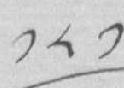༡༨༡
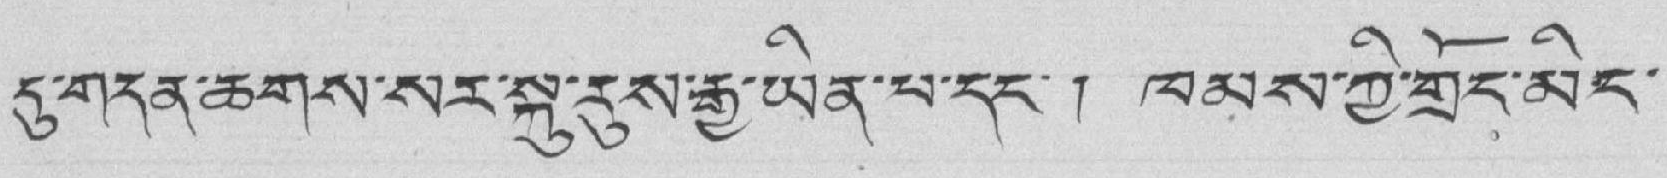དུ་གདན་ཆགས་སར་སྐུ་རུས་རྒྱ་ཡིན་པ་དང་ ། ཁམས་ཀྱི་གྲོང་མིང་
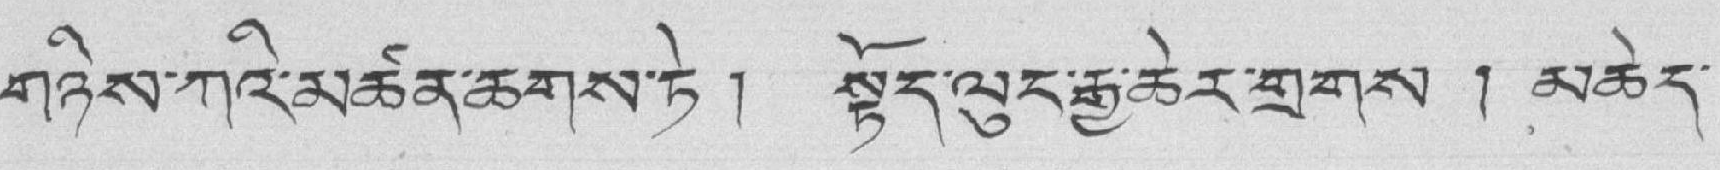གཉིས་ཀའི་མཚན་ཆགས་ཏེ ། སྟོད་ལུང་རྒྱ་ཆེར་གྲགས ། མཆེད་
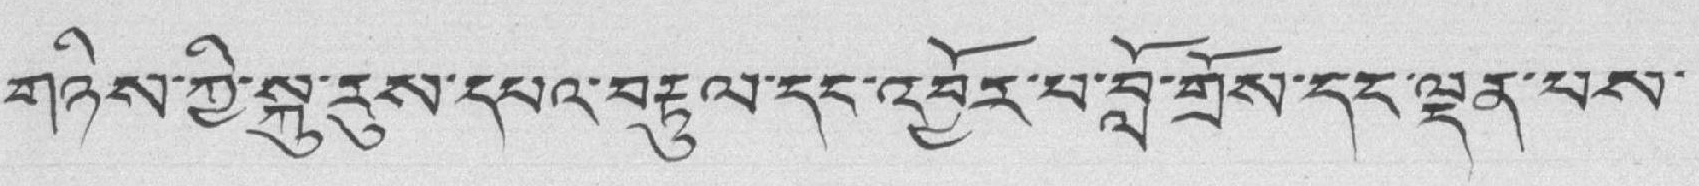གཉིས་ཀྱི་སྐུ་རུས་དཔའ་བརྟུལ་དང་འབྱོར་པ་བློ་གྲོས་དང་ལྡན་པས་
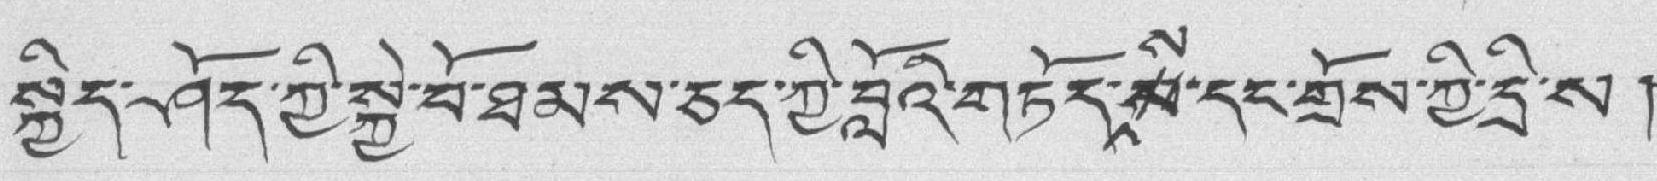སྐྱིད་ཤོད་ཀྱི་སྐྱེ་བོ་ཐམས་ཅད་ཀྱི་བློའི་གཏོད་སས་དང་གྲོས་ཀྱི་དྲི་ས །
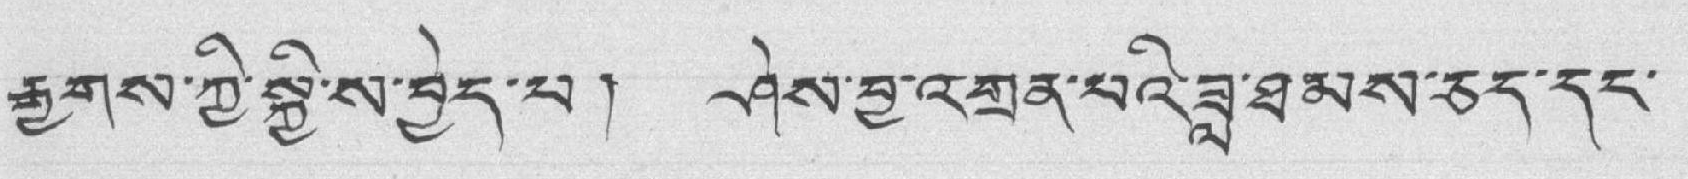རྒྱགས་ཀྱི་སྐྱི་ས་བྱེད་པ། ཤེས་བྱ་འགྲན་པའི་ཟླ་ཐམས་ཅད་དང་
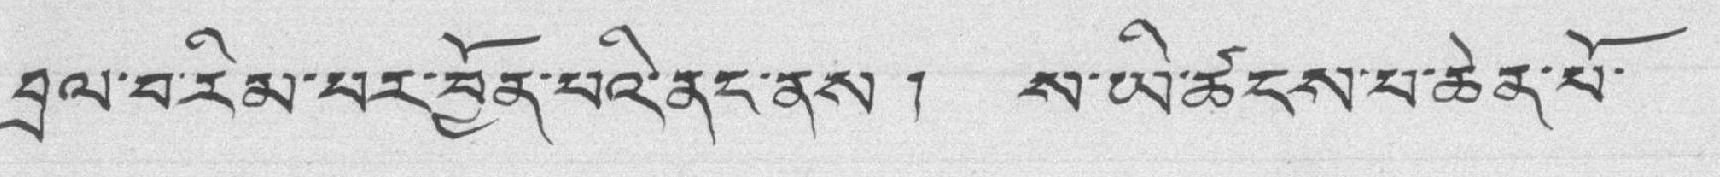བྲལ་བ་རིམ་པར་བྱོན་པའི་ནང་ནས ། ས་ཡི་ཚངས་པ་ཆེན་པོ་
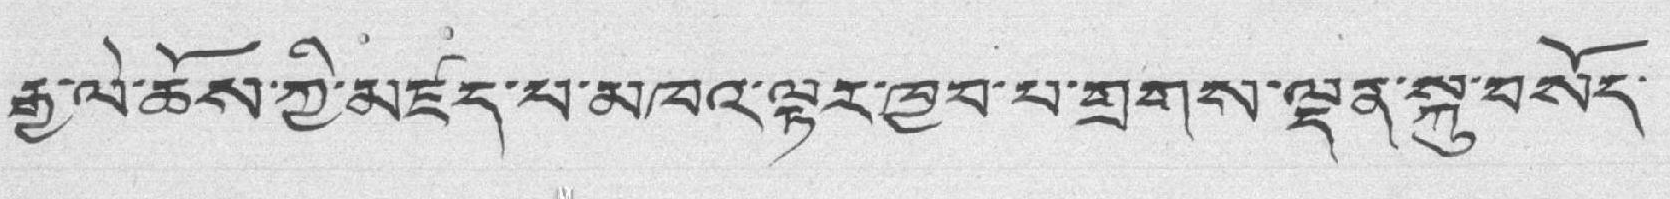རྒྱ་ལེ་ཆོས་ཀྱི་མཛད་པ་མཁའ་ལྟར་ཁྱབ་པ་གྲགས་ལྡན་སྐུ་བསོད་
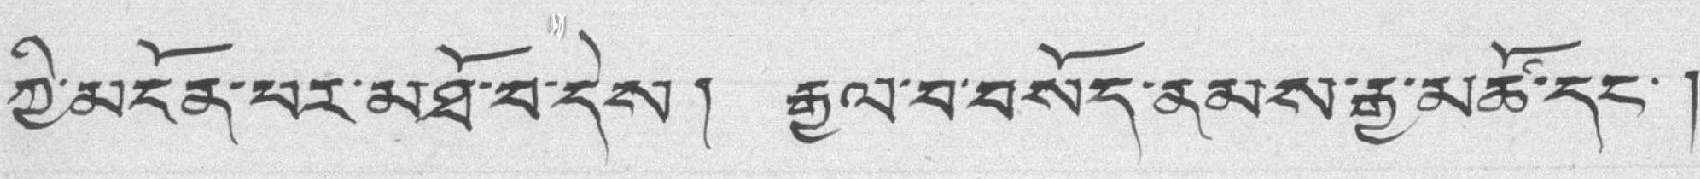ཀྱི་མངོན་པར་མཐོ་བ་དེས། རྒྱལ་བ་བསོད་ནམས་རྒྱ་མཚོ་དང་ །
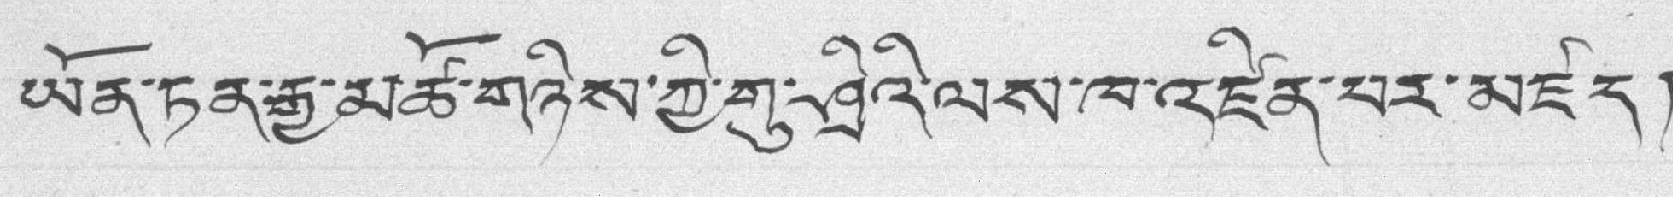ཡོན་ཏན་རྒྱ་མཚོ་གཉིས་ཀྱི་གུ་ཤྲིའི་ལས་ཁ་འཛིན་པར་མཛད།
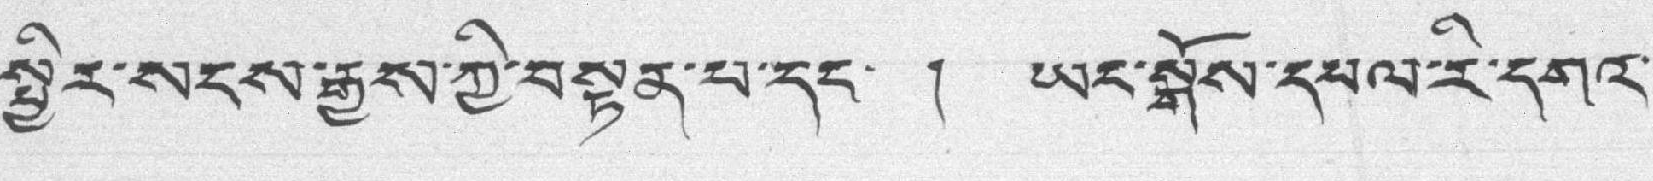སྤྱིར་སངས་རྒྱས་ཀྱི་བསྟན་པ་དང་ ། ཡང་སྒོས་དཔལ་རི་དགའ་
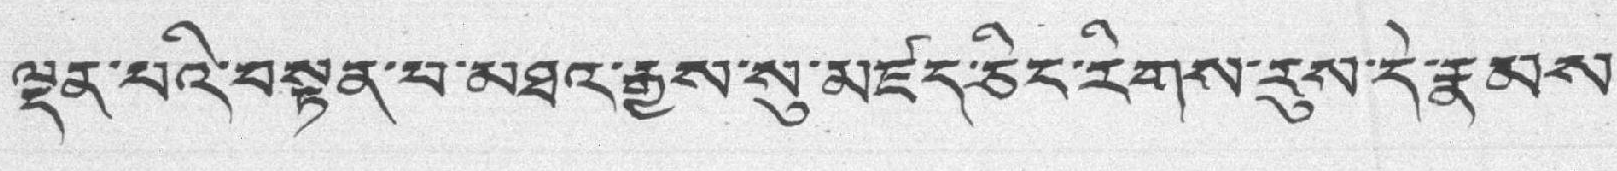ལྡན་པའི་བསྟན་པ་མཐའ་རྒྱས་སུ་མཛད་ཅིང་རིགས་རུས་དེ་རྣམས་
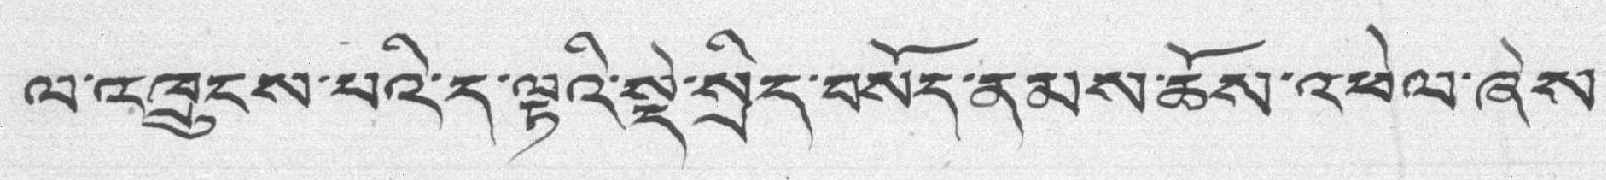ལ་འཁྲུངས་པའི་ད་ལྟའི་སྡེ་སྲིད་བསོད་ནམས་ཆོས་འཕེལ་ཞེས་
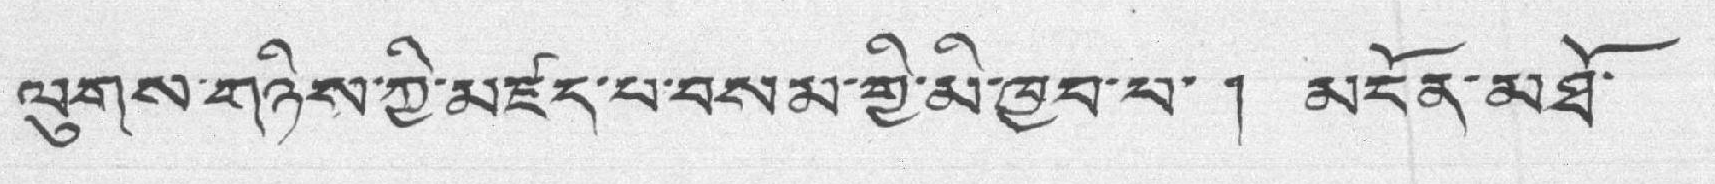ལུགས་གཉིས་ཀྱི་མཛད་པ་བསམ་གྱི་མི་ཁྱབ་པ་ ། མངོན་མཐོ་
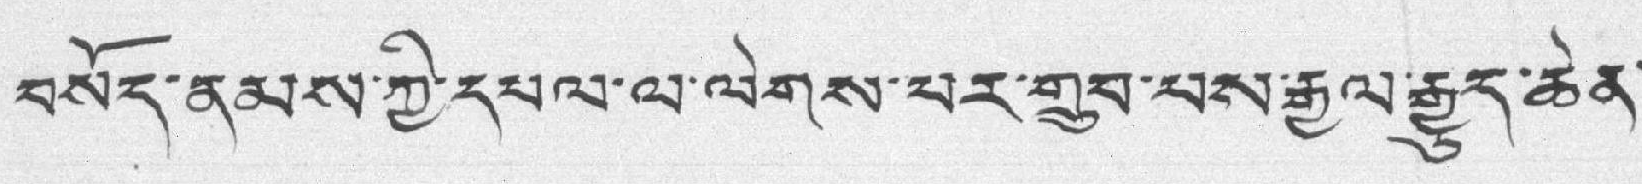བསོད་ནམས་ཀྱི་དཔལ་ལ་ལེགས་པར་གྲུབ་པས་རྒྱལ་རྒྱུད་ཆེན་
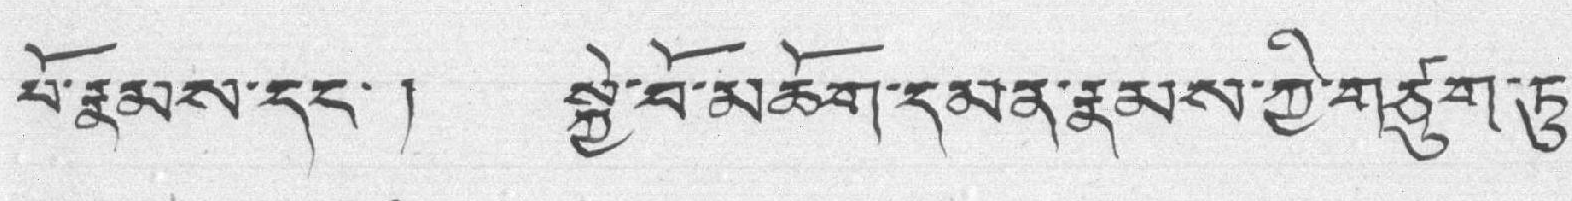པོ་རྣམས་དང་། སྐྱེ་བོ་མཆོག་དམན་རྣམས་ཀྱི་གཙུག་ཏུ་
